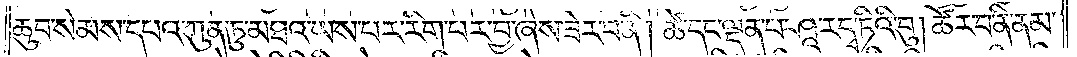ཆུབ་སེམས་དཔའ་ཀུན་ཏུ་མཐའ་ཡས་པར་རིག་པར་བྱ་ཞེས་ཟེར་བ་ནི། ཚེ་དང་ལྡན་པ་ཤཱ་ར་དྭ་ཏིའི་བུ། ཚོར་བ་ནི་ནམ་
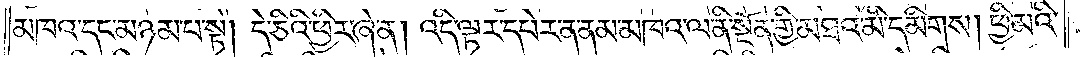མཁའ་དང་མཉམ་པ་སྟེ། དེ་ཅིའི་ཕྱིར་ཞེ་ན། འདི་ལྟར་དཔེར་ན་ནམ་མཁའ་ལ་ནི་སྔོན་གྱི་མཐའ་མི་དམིགས། ཕྱི་མའི་
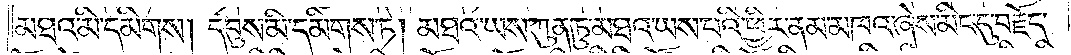མཐའ་མི་དམིགས། དབུས་མི་དམིགས་ཏེ། མཐའ་ཡས་ཀུན་ཏུ་མཐའ་ཡས་པའི་ཕྱིར་ནམ་མཁའ་ཞེས་མིང་དུ་བརྗོད་
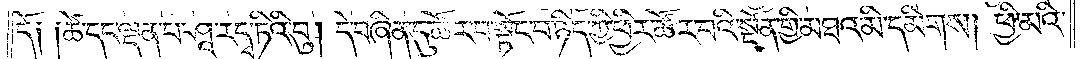དོ། །ཚེ་དང་ལྡན་པ་ཤཱ་ར་དྭ་ཏིའི་བུ། དེ་བཞིན་དུ་ཚོར་བ་སྟོང་པ་ཉིད་ཀྱི་ཕྱིར་ཚོར་བའི་སྔོན་གྱི་མཐའ་མི་དམིགས། ཕྱི་མའི་
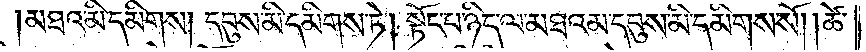མཐའ་མི་དམིགས། དབུས་མི་དམིགས་ཏེ། སྟོང་པ་ཉིད་ལ་མཐའམ་དབུས་མི་དམིགས་སོ། །ཚེ་
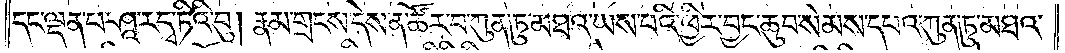དང་ལྡན་པ་ཤཱ་ར་དྭ་ཏིའི་བུ། རྣམ་གྲངས་དེས་ན་ཚོར་བ་ཀུན་ཏུ་མཐའ་ཡས་པའི་ཕྱིར་བྱང་ཆུབ་སེམས་དཔའ་ཀུན་ཏུ་མཐའ་
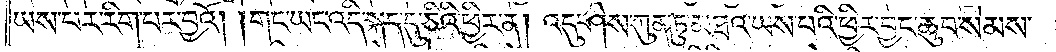ཡས་པར་རིག་པར་བྱའོ། །གང་ཡང་འདི་སྐད་དུ་ཅིའི་ཕྱིར་ན། འདུ་ཤེས་ཀུན་ཏུ་མཐའ་ཡས་པའི་ཕྱིར་བྱང་ཆུབ་སེམས་
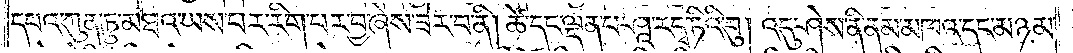དཔའ་ཀུན་ཏུ་མཐའ་ཡས་པར་རིག་པར་བྱ་ཞེས་ཟེར་བ་ནི། ཚེ་དང་ལྡན་པ་ཤཱ་ར་དྭ་ཏིའི་བུ། འདུ་ཤེས་ནི་ནམ་མཁའ་དང་མཉམ་
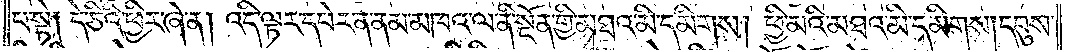པ་སྟེ། དེ་ཅིའི་ཕྱིར་ཞེ་ན། འདི་ལྟར་དཔེར་ན་ནམ་མཁའ་ལ་ནི་སྔོན་གྱི་མཐའ་མི་དམིགས། ཕྱི་མའི་མཐའ་མི་དམིགས། དབུས་
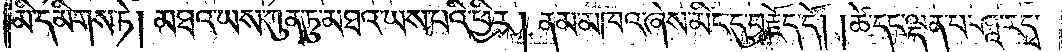མི་དམིགས་ཏེ། མཐའ་ཡས་ཀུན་ཏུ་མཐའ་ཡས་པའི་ཕྱིར། ནམ་མཁའ་ཞེས་མིང་དུ་བརྗོད་དོ། །ཚེ་དང་ལྡན་པ་ཤཱ་ར་དྭ་
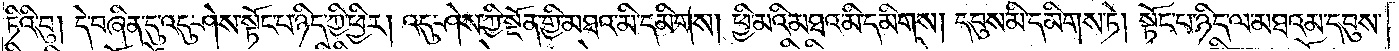ཏིའི་བུ། དེ་བཞིན་དུ་འདུ་ཤེས་སྟོང་པ་ཉིད་ཀྱི་ཕྱིར། འདུ་ཤེས་ཀྱི་སྔོན་གྱི་མཐའ་མི་དམིགས། ཕྱི་མའི་མཐའ་མི་དམིགས། དབུས་མི་དམིགས་ཏེ། སྟོང་པ་ཉིད་ལ་མཐའམ་དབུས་
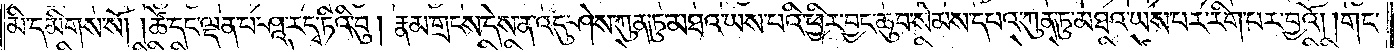མི་དམིགས་སོ། ཚེ་དང་ལྡན་པ་ཤཱ་ར་དྭ་ཏིའི་བུ། རྣམ་གྲངས་དེས་ན་འདུ་ཤེས་ཀུན་ཏུ་མཐའ་ཡས་པའི་ཕྱིར་བྱང་ཆུབ་སེམས་དཔའ་ཀུན་ཏུ་མཐའ་ཡས་པར་རིག་པར་བྱའོ། །གང་
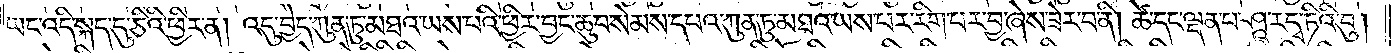ཡང་འདི་སྐད་དུ་ཅིའི་ཕྱིར་ན། འདུ་བྱེད་ཀུན་ཏུ་མཐའ་ཡས་པའི་ཕྱིར་བྱང་ཆུབ་སེམས་དཔའ་ཀུན་ཏུ་མཐའ་ཡས་པར་རིག་པར་བྱ་ཞེས་ཟེར་བ་ནི། ཚེ་དང་ལྡན་པ་ཤཱ་ར་དྭ་ཏིའི་བུ།
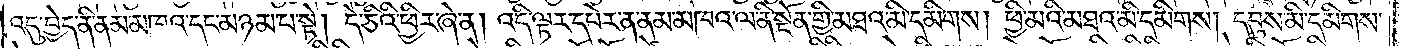འདུ་བྱེད་ནི་ནམ་མཁའ་དང་མཉམ་པ་སྟེ། དེ་ཅིའི་ཕྱིར་ཞེ་ན། འདི་ལྟར་དཔེར་ན་ནམ་མཁའ་ལ་ནི་སྔོན་གྱི་མཐའ་མི་དམིགས། ཕྱི་མའི་མཐའ་མི་དམིགས། དབུས་མི་དམིགས་
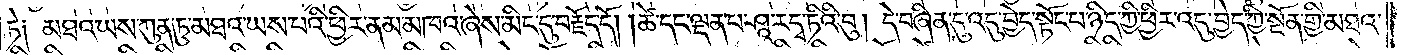ཏེ། མཐའ་ཡས་ཀུན་ཏུ་མཐའ་ཡས་པའི་ཕྱིར་ནམ་མཁའ་ཞེས་མིང་དུ་བརྗོད་དོ། །ཚེ་དང་ལྟན་པ་ཤཱ་ར་དྭ་ཏིའི་བུ། དེ་བཞིན་དུ་འདུ་བྱེད་སྟོང་པ་ཉིད་ཀྱི་ཕྱིར་འདུ་བྱེད་ཀྱི་སྔོན་གྱི་མཐའ་
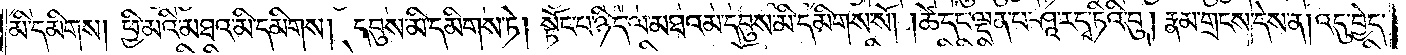མི་དམིགས། ཕྱི་མའི་མཐའ་མི་དམིགས། དབུས་མི་དམིགས་ཏེ། སྟོང་པ་ཉིད་ལ་མཐའམ་དབུས་མི་དམིགས་སོ། །ཚེ་དང་ལྡན་པ་ཤཱ་ར་དྭ་ཏིའི་བུ། རྣམ་གྲངས་དེས་ན། འདུ་བྱེད་
